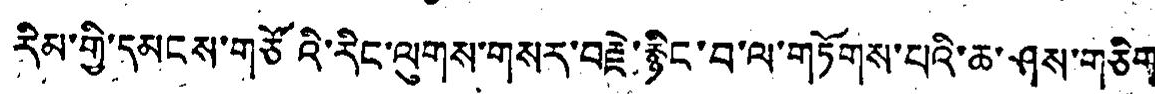རིམ་གྱི་དམངས་གཙོའི་རིང་ལུགས་གསར་བརྗེ་རྙིང་བ་ལ་གཏོགས་པའི་ཆ་ཤས་གཅིག
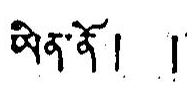ཡིན་ནོ། །
